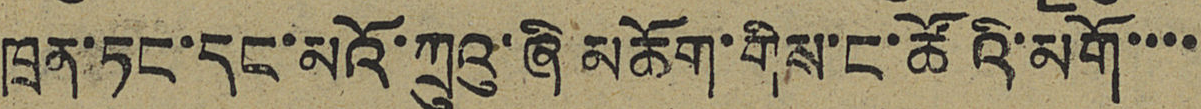ཁྲན་ཏང་དང་མའོ་ཀྲུའུ་ཞི མཆོག་གིས་ང་ཚོའི་མགོ་་་་
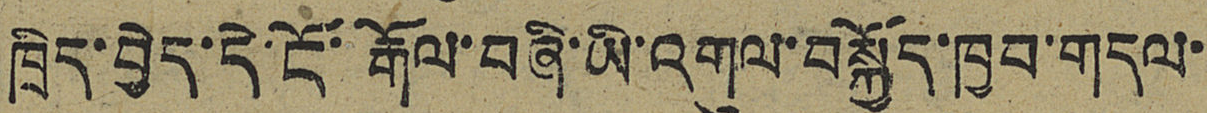ཁྲིད་བྱེད་དེ་ངོ་རྒོལ་བཞི་ཡི་འགུལ་བསྐྱོད་ཁྱབ་གདལ་
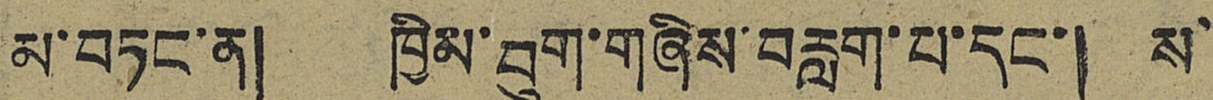མ་བཏང་མ། ཁྱིམ་བུག་གཞིས་བརླག་པ་དང་། ས་
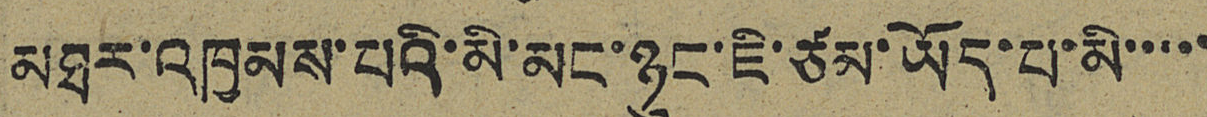མཐར་འཁྱམས་པའི་མི་མང་ཉུང་ཇི་ཙམ་ཡོད་པ་མི་་་་་
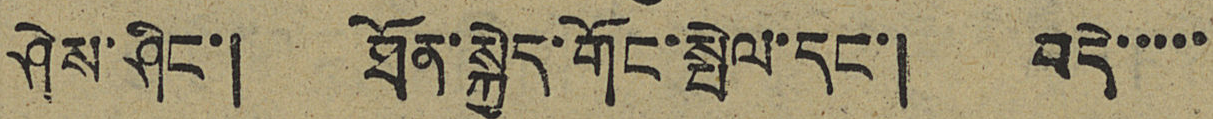ཤེས་ཤིང་། ཐོན་སྐྱེད་གོང་སྤེལ་དང་། བདེ་་་་་
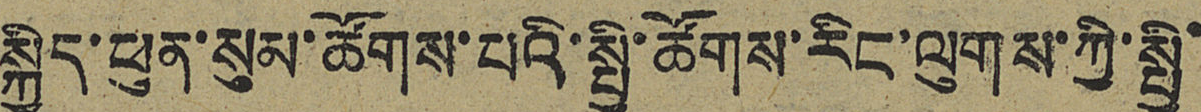སྐྱིད་ཕུན་སུམ་ཚོགས་པའི་སྤྱི་ཚོགས་རིང་ལུགས་ཀྱི་སྤྱི་
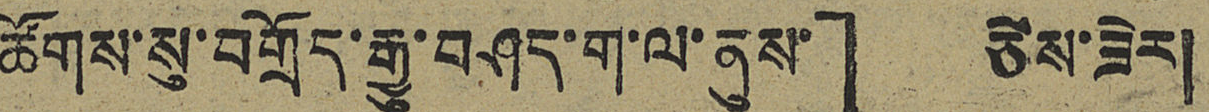ཚོགས་སུ་བགྲོད་རྒྱུ་བཤད་ག་ལ་ནུས་」 ཅེས་ཟེར།
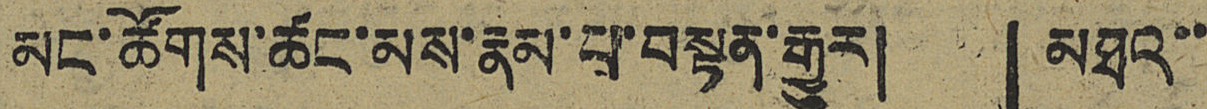མང་ཚོགས་ཚང་མས་རྣམ་པ་བསྟན་རྒྱུར། 「མཐའ་་
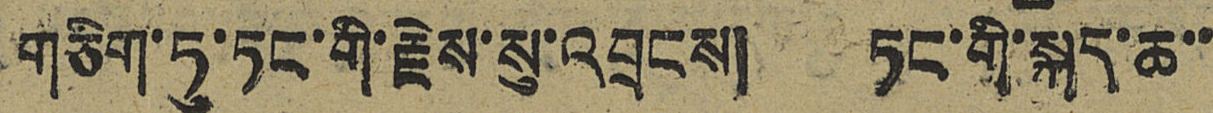གཅིག་ཏུ་ཏང་གི་རྗེས་སུ་འབྲངས། ཏང་གི་སྐད་ཆ་་
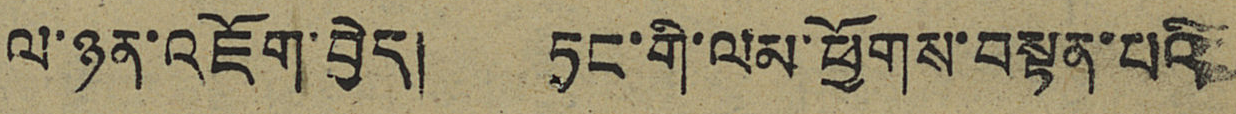ལ་ཉན་འཇོག་བྱེད། ཏང་གི་ལམ་ཕྱོགས་བསྟན་པའི་
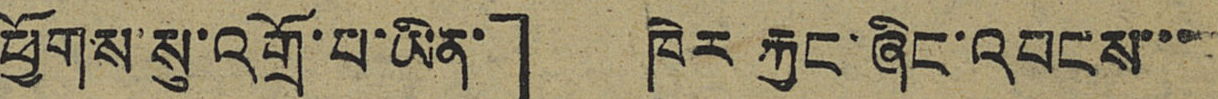ཕྱོགས་སུ་འགྲོ་པ་ཡིན་」ཁེར རྐྱང་ཞིང་འབངས་་་
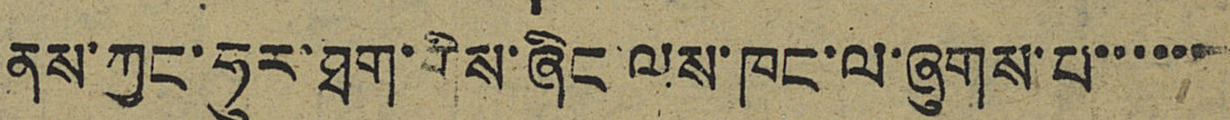ནས་ཀྱང་ཧུར་ཐག་གིས་ཞིང་ལས་ཁང་ལ་ཞུགས་པ་་་་་་་
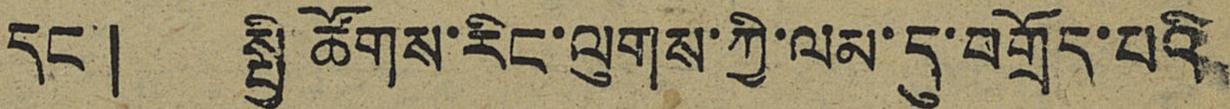དང་། སྤྱི་ཚོགས་རིང་ལུགས་ཀྱི་ལམ་དུ་བགྲོད་པའི
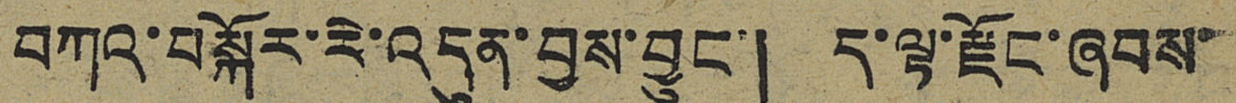བཀའ་བསྐོར་རེ་བདུན་བྱས་བྱུང་། ད་ལྟ་རྫོང་ཞབས་
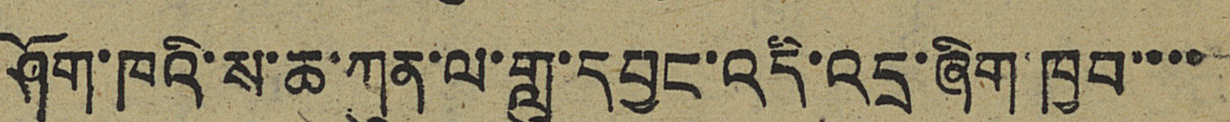ཤོག་ཁའི་ས་ཆ་ཀུན་ལ་གླུ་དབྱང་འདི་འདྲ་ཞིག་ཁྱབ་་་་
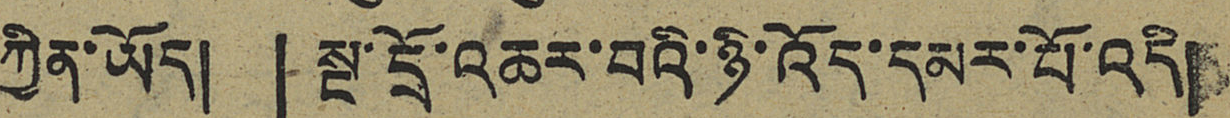ཀྱིན་ཡོད། 「སྔ་དྲོ་འཆར་བའི་ཉི་འོད་དམར་པོ་འདི།
